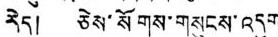རེད། ཅེས་སོགས་གསུངས་འདུག
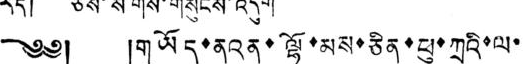༄༅། །གཡོད་ནའན་ལྷོ་མས་ཅིན་ཕུ་ཀྲའི་ལ་
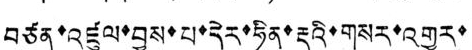བཙན་འཛུལ་བྱས་པ་དེར་ཧིན་རྡུའི་གསར་འགྱུར་
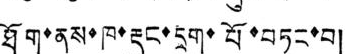ཐོག་ནས་ཁ་རྡུང་དྲག་པོ་བཏང་བ།
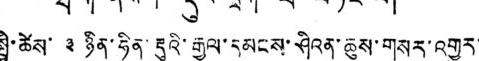སྤྱི་ཚེས་ ༣ ཉིན་ཧིན་རྡུའི་རྒྱལ་དམངས་ཤིའན་ཆུས་གསར་འགྱུར་
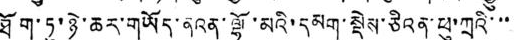ཐོག་ཏུ་ཉེ་ཆར་གཡོད་ནའན་ལྷོ་མའི་དམག་སྡེས་ཅིའན་ཕུ་ཀྲའི་་་་
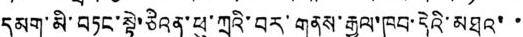དམག་མི་བཏང་སྟེ་ཅིའན་ཕུ་ཀྲའི་བར་གནས་རྒྱལ་ཁབ་དེའི་མཐའ་་
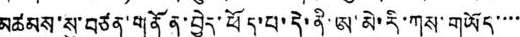མཚམས་སུ་བཙན་གནོན་བྱེད་ཕོད་པ་དེ་ནི་ཨ་མེ་རི་ཀས་གཡོད་་་་
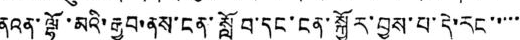ནའན་ལྷོ་མའི་རྒྱབ་ནས་ངན་སློབ་དང་ངན་སྐྱོར་བྱས་པ་དེ་རང་་་་་
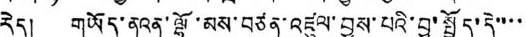རེད། གཡོད་ནའན་ལྷོ་མས་བཙན་འཛུལ་བྱས་པའི་བྱ་སྤྱོད་དེ་་་་
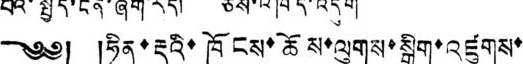༄༅། །ཧིན་རྡུའི་ཁོངས་ཚོས་ལུགས་སྒྲིག་འཛུགས་
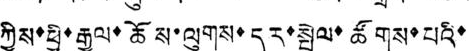ཀྱིས་ཕྱི་རྒྱལ་ཆོས་ལུགས་དར་སྤེལ་ཚོགས་པའི་
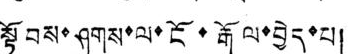སྟོབས་ཤུགས་ལ་ངོ་རྒོལ་བྱེད་པ།
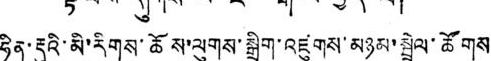ཧིན་རྡུའི་མི་རིགས་ཆོས་ལུགས་སྒྲིག་འཛུགས་མཉམ་སྦྲེལ་ཚོགས
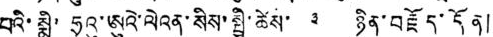པའི་སྨི་ ཧྲུའུ་ཨུའེ་ལེའན་སིས་སྤྱི་ཚེས་ ༣ ཉིན་བརྗོད་དོན།
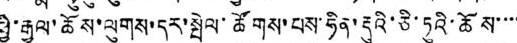ཕྱི་རྒྱལ་ཆོས་ལུགས་དར་སྤེལ་ཚོགས་པས་ཧིན་རྡུའི་ཅི་ཏུའི་ཆོས་་་་
